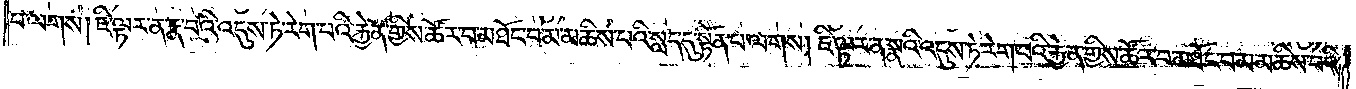པ་ལགས། ཇི་ལྟར་ན་རྣ་བའི་འདུས་ཏེ་རེག་པའི་རྐྱེན་གྱིས་ཚོར་བ་མཐོང་བ་མ་མཆིས་པའི་སླད་དུ་སྟོན་པ་ལགས། ཇི་ལྟར་ན་སྣའི་འདུས་ཏེ་རེག་པའི་རྐྱེན་གྱིས་ཚོར་བ་མཐོང་བ་མ་མཆིས་པའི་
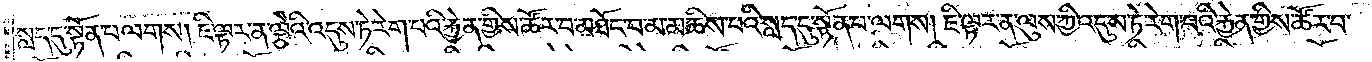སླད་དུ་སྟོན་པ་ལགས། ཇི་ལྟར་ན་ལྕེའི་འདུས་ཏེ་རེག་པའི་རྐྱེན་གྱིས་ཚོར་བ་མཐོང་བ་མ་མཆིས་པའི་སླད་དུ་སྟོན་པ་ལགས། ཇི་ལྟར་ན་ལུས་ཀྱི་འདུས་ཏེ་རེག་པའི་རྐྱེན་གྱིས་ཚོར་བ་
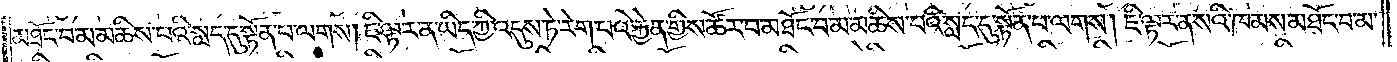མཐོང་བ་མ་མཆིས་པའི་སླད་དུ་སྟོན་པ་ལགས། ཇི་ལྟར་ན་ཡིད་ཀྱི་འདུས་ཏེ་རེག་པའི་རྐྱེན་གྱིས་ཚོར་བ་མཐོང་བ་མ་མཆིས་པའི་སླད་དུ་སྟོན་པ་ལགས། ཇི་ལྟར་ན་སའི་ཁམས་མཐོང་བ་མ་
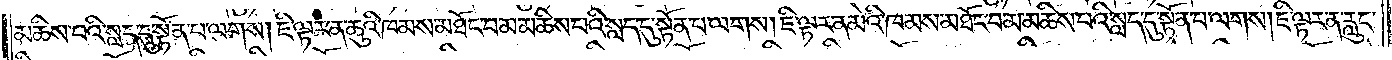མཆིས་པའི་སླད་དུ་སྟོན་པ་ལགས། ཇི་ལྟར་ན་ཆུའི་ཁམས་མཐོང་བ་མ་མཆིས་པའི་སླད་དུ་སྟོན་པ་ལགས། ཇི་ལྟར་ན་མེའི་ཁམས་མཐོང་བ་མ་མཆིས་པའི་སླད་དུ་སྟོན་པ་ལགས། ཇི་ལྟར་ན་རླུང་
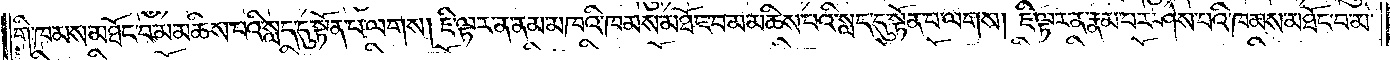གི་ཁམས་མཐོང་བ་མ་མཆིས་པའི་སླད་དུ་སྟོན་པ་ལགས། ཇི་ལྟར་ན་ནམ་མཁའི་ཁམས་མཐོང་བ་མ་མཆིས་པའི་སླད་དུ་སྟོན་པ་ལགས། ཇི་ལྟར་ན་རྣམ་པར་ཤེས་པའི་ཁམས་མཐོང་བ་མ་
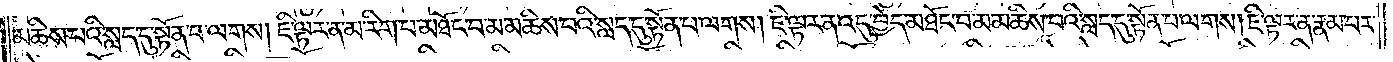མཆིས་པའི་སླད་དུ་སྟོན་པ་ལགས། ཇི་ལྟར་ན་མ་རིག་པ་མཐོང་བ་མ་མཆིས་པའི་སླད་དུ་སྟོན་པ་ལགས། ཇི་ལྟར་ན་འདུ་བྱེད་མཐོང་བ་མ་མཆིས་པའི་སླད་དུ་སྟོན་པ་ལགས། ཇི་ལྟར་ན་རྣམ་པར་
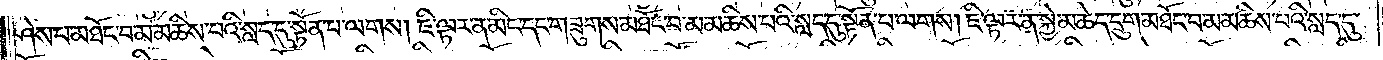ཤེས་པ་མཐོང་བ་མ་མཆིས་པའི་སླད་དུ་སྟོན་པ་ལགས། ཇི་ལྟར་ན་མིང་དང་གཟུགས་མཐོང་བ་མ་མཆིས་པའི་སླད་དུ་སྟོན་པ་ལགས། ཇི་ལྟར་ན་སྐྱེ་མཆེད་དྲུག་མཐོང་བ་མ་མཆིས་པའི་སླད་དུ་
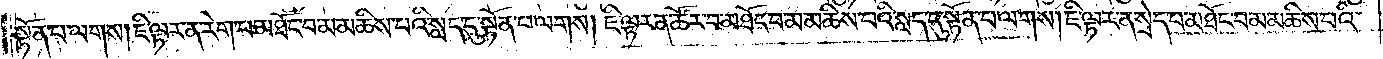སྟོན་པ་ལགས། ཇི་ལྟར་ན་རེག་པ་མཐོང་བ་མ་མཆིས་པའི་སླད་དུ་སྟོན་པ་ལགས། ཇི་ལྟར་ན་ཚོར་བ་མཐོང་བ་མ་མཆིས་པའི་སླད་དུ་སྟོན་པ་ལགས། ཇི་ལྟར་ན་སྲེད་པ་མཐོང་བ་མ་མཆིས་པའི་
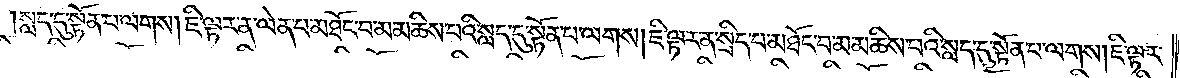སླད་དུ་སྟོན་པ་ལགས། ཇི་ལྟར་ན་ལེན་པ་མཐོང་བ་མ་མཆིས་པའི་སླད་དུ་སྟོན་པ་ལགས། ཇི་ལྟར་ན་སྲིད་པ་མཐོང་བ་མ་མཆིས་པའི་སླད་དུ་སྟོན་པ་ལགས། ཇི་ལྟར་
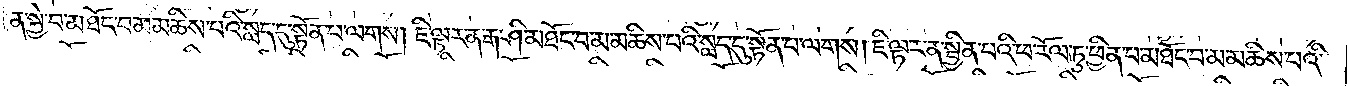ན་སྐྱེ་བ་མཐོང་བ་མ་མཆིས་པའི་སླད་དུ་སྟོན་པ་ལགས། ཇི་ལྟར་ན་རྒ་ཤི་མཐོང་བ་མ་མཆིས་པའི་སླད་དུ་སྟོན་པ་ལགས། ཇི་ལྟར་ན་སྦྱིན་པའི་ཕ་རོལ་ཏུ་ཕྱིན་པ་མཐོང་བ་མ་མཆིས་པའི་
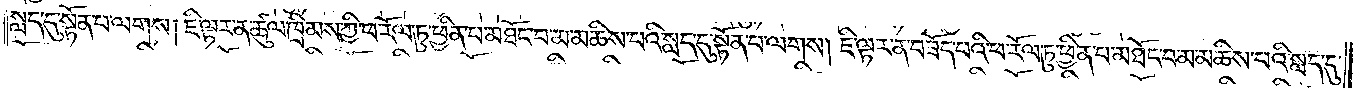སླད་དུ་སྟོན་པ་ལགས། ཇི་ལྟར་ན་ཚུལ་ཁྲིམས་ཀྱི་ཕ་རོལ་ཏུ་ཕྱིན་པ་མཐོང་བ་མ་མཆིས་པའི་སླད་དུ་སྟོན་པ་ལགས། ཇི་ལྟར་ན་བཟོད་པའི་ཕ་རོལ་ཏུ་ཕྱིན་པ་མཐོང་བ་མ་མཆིས་པའི་སླད་དུ་
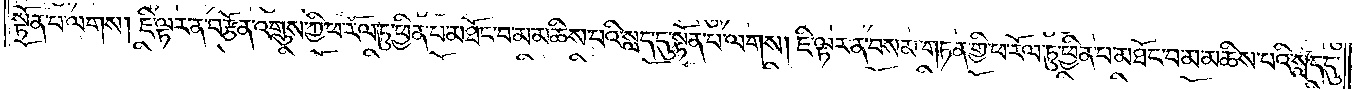སྟོན་པ་ལགས། ཇི་ལྟར་ན་བརྩོན་འགྲུས་ཀྱི་ཕ་རོལ་ཏུ་ཕྱིན་པ་མཐོང་བ་མ་མཆིས་པའི་སླད་དུ་སྟོན་པ་ལགས། ཇི་ལྟར་ན་བསམ་གཏན་གྱི་ཕ་རོལ་ཏུ་ཕྱིན་པ་མཐོང་བ་མ་མཆིས་པའི་སླད་དུ་
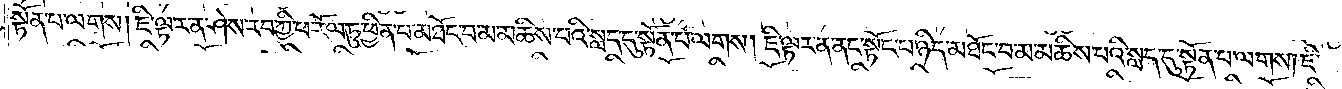སྟོན་པ་ལགས། ཇི་ལྟར་ན་ཤེས་རབ་ཀྱི་ཕ་རོལ་ཏུ་ཕྱིན་པ་མཐོང་བ་མ་མཆིས་པའི་སླད་དུ་སྟོན་པ་ལགས། ཇི་ལྟར་ན་ནང་སྟོང་པ་ཉིད་མཐོང་བ་མ་མཆིས་པའི་སླད་དུ་སྟོན་པ་ལགས། ཇི་
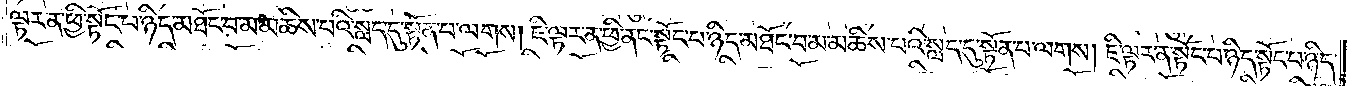ལྟར་ན་ཕྱི་སྟོང་པ་ཉིད་མཐོང་བ་མ་མཆིས་པའི་སླད་དུ་སྟོན་པ་ལགས། ཇི་ལྟར་ན་ཕྱི་ནང་སྟོང་པ་ཉིད་མཐོང་བ་མ་མཆིས་པའི་སླད་དུ་སྟོན་པ་ལགས། ཇི་ལྟར་ན་སྟོང་པ་ཉིད་སྟོང་པ་ཉིད་
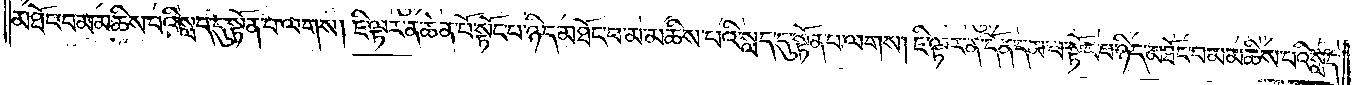མཐོང་བ་མ་མཆིས་པའི་སླད་དུ་སྟོན་པ་ལགས། ཇི་ལྟར་ན་ཆེན་པོ་སྟོང་པ་ཉིད་མཐོང་བ་མ་མཆིས་པའི་སླད་དུ་སྟོན་པ་ལགས། ཇི་ལྟར་ན་དོན་དམ་པ་སྟོང་པ་ཉིད་མཐོང་བ་མ་མཆིས་པའི་སླད་
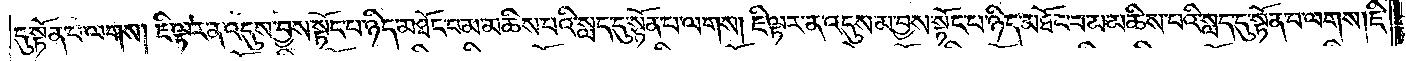དུ་སྟོན་པ་ལགས། ཇི་ལྟར་ན་འདུས་བྱས་སྟོང་པ་ཉིད་མཐོང་བ་མ་མཆིས་པའི་སླད་དུ་སྟོན་པ་ལགས། ཇི་ལྟར་ན་འདུས་མ་བྱས་སྟོང་པ་ཉིད་མཐོང་བ་མ་མཆིས་པའི་སླད་དུ་སྟོན་པ་ལགས། ཇི་
